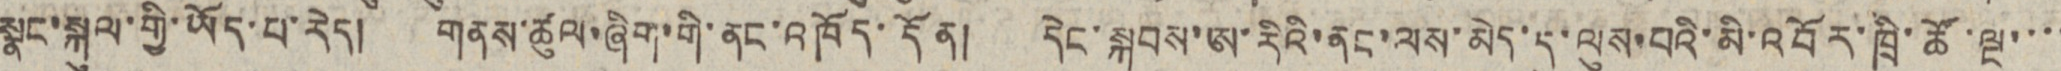སྣང་སྐུལ་གྱི་ཡོད་པ་རེད། གནས་ཚུལ་ཞིག་གི་ནང་འཁོད་དོན། དེང་སྐབས་ཨ་རིའི་ནང་ལས་མེད་དུ་ལུས་པའི་མི་འབོར་ཁྲི་ཚོ་ལྔ་་་་
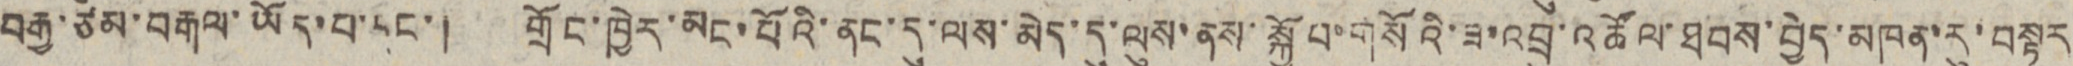བརྒྱ་ཙམ་བརྒལ་ཡོད་པ་དང་། གྲོང་ཁྱེར་མང་པོའི་ནང་དུ་ལས་མེད་དུ་ལུས་ནས་སྐྱོབ་གསོའི་ཟ་འབྲུ་འཚོལ་ཐབས་བྱེད་མཁན་རུ་བསྟར
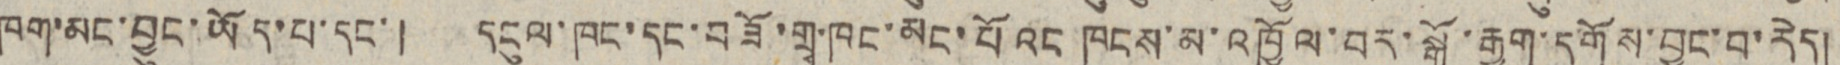ཁག་མང་བྱུང་ཡོད་པ་དང་། དངུལ་ཁང་དང་བཟོ་གྲྭ་ཁང་མང་པོའང ཁུངས་མ་འཁྱོལ་བར་སྒོ་རྒྱག་དགོས་བྱུང་བ་རེད།
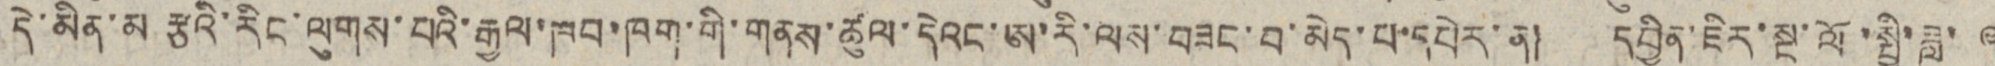དེ་མིན་མ རྩའི་རིང་ལུགས་པའི་རྒྱལ་ཁབ་གི་གནས་ཚུལ་དེའང་ཨ་རི་ལས་བཟང་བ་མེད་པ་དཔེར་ན། དབྱིན་ཇིར་སྔ་ལོ་སྤྱི་ཟླ་ ༩
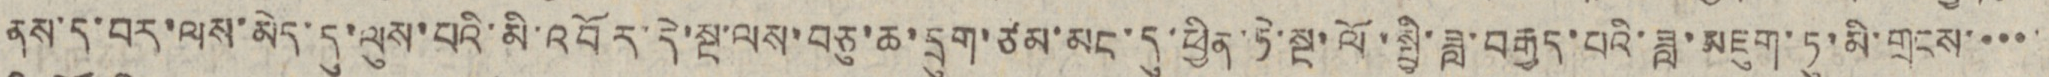ནས་ད་བར་ལས་མེད་དུ་ལུས་པའི་མི་འབོར་དེ་སྔ་ལས་བཅུ་ཆ་དྲུག་ཙམ་མང་དུ་ཕྱིན་ཏེ་སྔ་ལོ་སྤྱི་ཟླ་བརྒྱད་པའི་ཟླ་མཇུག་ཏུ་མི་གྲངས་་་་་་་
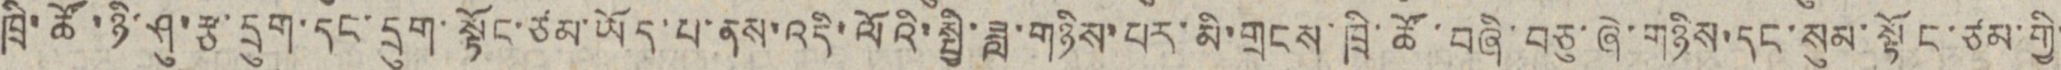ཁྲི་ཚོ་ཉི་ཤུ་རྩ་དྲུག་དང་དྲུག་སྟོང་ཙམ་ཡོད་པ་ནས་འདི་ལོའི་སྤྱི་ཟླ་གཉིས་པར་མི་གྲངས་ཁྲི་ཚོ་བཞི་བཅུ་ཞེ་གཉིས་དང་སུམ་སྟོང་ཙམ་གྱི་
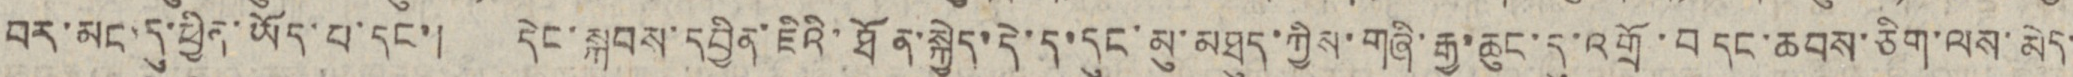བར་མང་དུ་ཕྱིན་ཡོད་པ་དང་། དེང་སྐབས་དབྱིན་ཇིའི་ཐོན་སྐྱེད་དེ་ད་དུང་མུ་མཐུད་ཀྱིས་གཞི་རྒྱ་ཆུང་དུ་འགྲོ་བ དང་ཆབས་ཅིག་ལས་མེད་
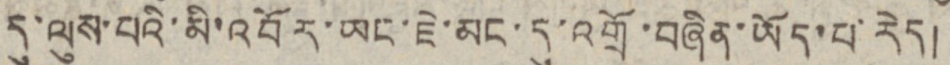དུ་ལུས་པའི་མི་འབོར་ཡང་ཇེ་མང་དུ་འགྲོ་བཞིན་ཡོད་པ་རེད།
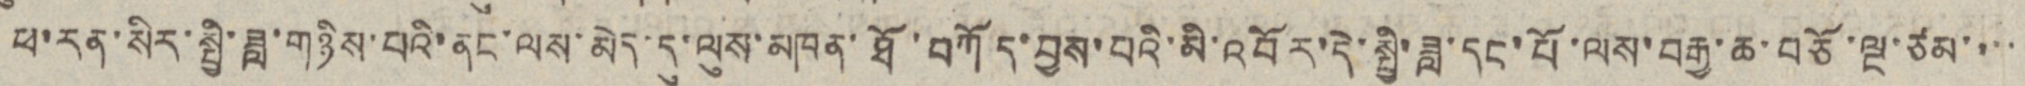ཕ་རན་སིར་སྤྱི་ཟླ་གཉིས་པའི་ནང་ལས་མེད་དུ་ལུས་མཁན་ཐོ་བཀོད་བྱས་པའི་མི་འབོར་དེ་སྤྱི་ཟླ་དང་པོ་ལས་བརྒྱ་ཆ་བཅོ་ལྔ་ཙམ་་་་
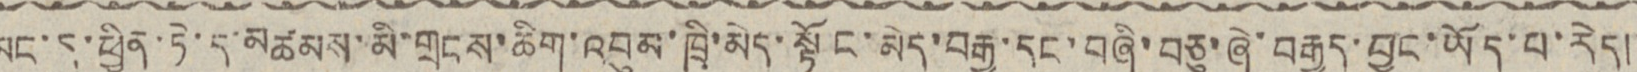མང་དུ་ཕྱིན་ཏེ་ད་མཚམས་མི་གྲངས་ཆིག་འབུམ་ཁྲི་མེད་སྟོང་མེད་བརྒྱ་དང་བཞི་བཅུ་ཞེ་བརྒྱད་བྱུང་ཡོད་པ་རེད།
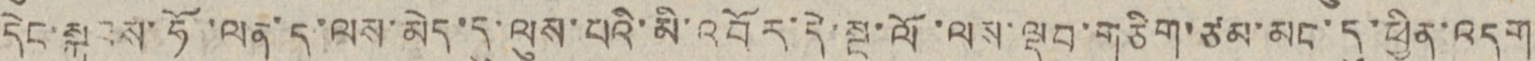དེང་སྐབས་ཧོ་ལན་དུ་ལས་མེད་དུ་ལུས་པའི་མི་འབོར་དེ་སྔ་ལོ་ལས་ལྡབ་གཅིག་ཙམ་མང་དུ་ཕྱིན་འདུག
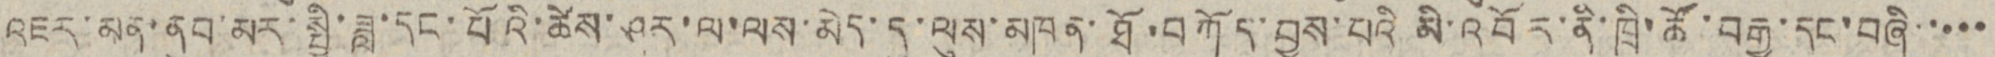འཇར་མན་ནུབ་མར་སྤྱི་ཟླ་དང་པོའི་ཚེས་ཤར་ལ་ལས་མེད་དུ་ལུས་མཁན་ཐོ་བཀོད་བྱས་པའི མི་འབོར་ནི་ཁྲི་ཚོ་བརྒྱ་དང་བཞི་་་་་་
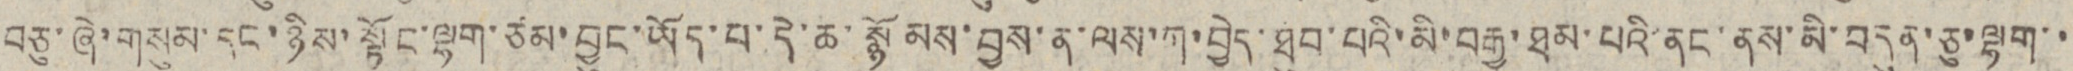བཅུ་ཞེ་གསུམ་དང་ཉིས་སྟོང་ལྷག་ཙམ་བྱུང་ཡོད་པ་དེ་ཆ་སྙོམས་བྱས་ན་ལག་ཀ་བྱེད་ཐུབ་པའི་མི་བརྒྱ་ཐམ་པའི་ནང་ནས་མི་བདུན་ཅུ་ལྷག་་
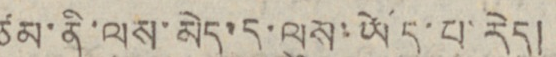ཙམ་ནི་ལས་མེད་དུ་ལུས་ཡོད་པ་རེད།
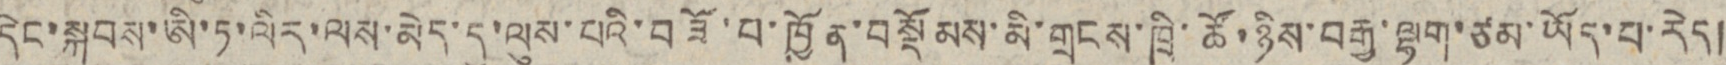དེང་སྐབས་ཨི་ཏ་ལིར་ལས་མེད་དུ་ལུས་པའི་བཟོ་པ་ཁྱོན་བསྡོམས་མི་གྲངས་ཁྲི་ཚོ་ཉིས་བརྒྱ་ལྷག་ཙམ་ཡོད་པ་རེད།
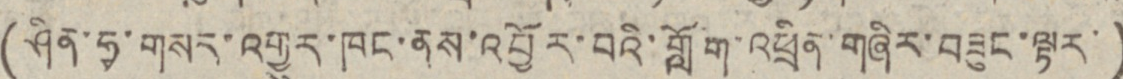(ཤིན་ཧྭ་གསར་འགྱུར་ཁང་ནས་འབྱོར་བའི་གློག་འཕྲིན་གཞིར་བཟུང་ལྟར་)
